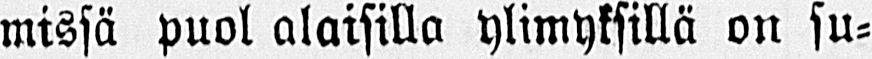missä puol alaisilla ylimyksillä on su-
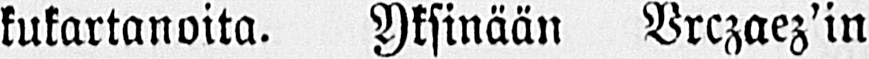kukartanoita. Yksinään Vrczaez'in
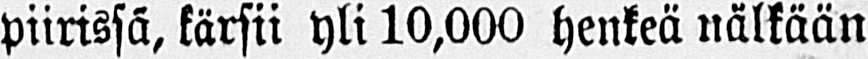piirissä, kärsii yli 10,000 henkeä nälkään
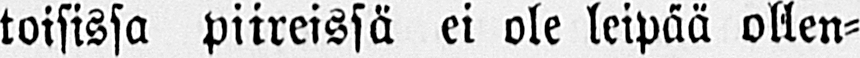toisissa piireissä ei ole leipää ollen-
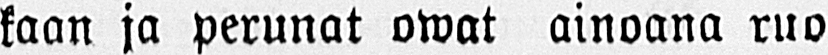kaan ja perunat owat ainoana ruo-
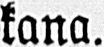kana.
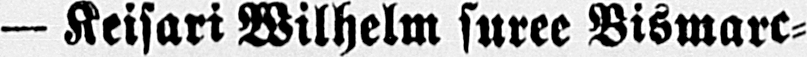— Keisari Wilhelm suree Bismarc-
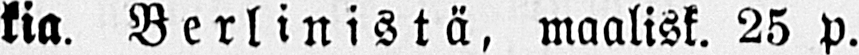kia. Berlinistä, maalisk. 25 p.
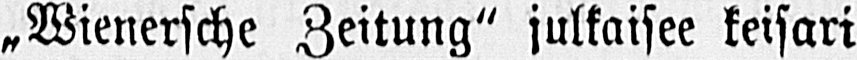„Wienersche Zeitung" julkaisee keisari
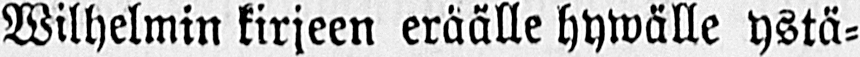Wilhelmin kirjeen eräälle hywälle ystä-
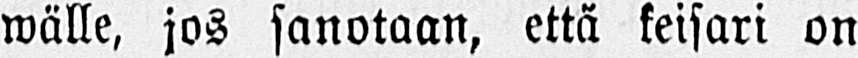wälle, jos sanotaan, että keisari on
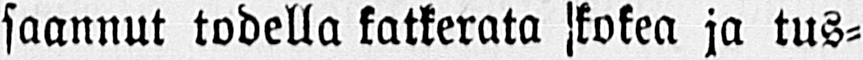saannut todella katkerata kokea ja tus-
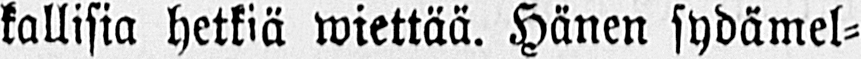kallisia hetkiä wiettää. Hänen sydämel-
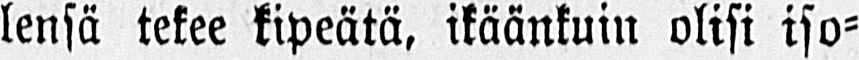lensä tekee kipeätä, ikäänkuin olisi iso-
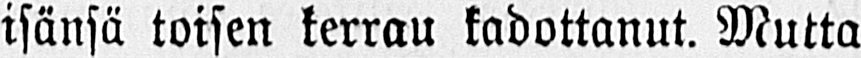isänsä toisen kerrau kadottanut. Mutta
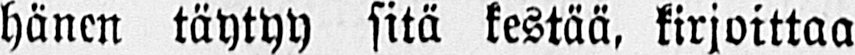hänen täytyy sitä kestää, kirjoittaa
